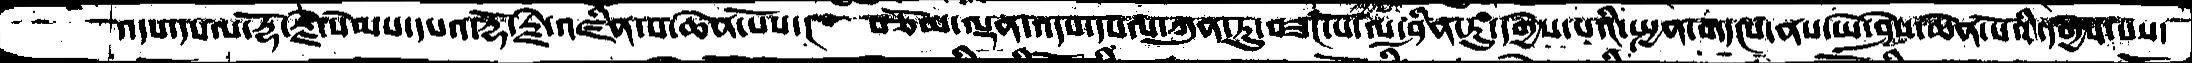འདས་དཔལ་རྡོ་རྗེ་སེམས་དཔའ་རྡོ་རྗེ་འཛིན་པ་ཆེན་པོས་།  བཅོམ་ལྡན་འདས་དཔལ་ཀུན་ཏུ་བཟང་པོ་ལ་ཤིན་ཏུ་དགྱེས་པའི་སྤྱན་གདངས་ནས་ཡེ་ཤེས་ཆེན་པོའི་དགྱེས་པས་
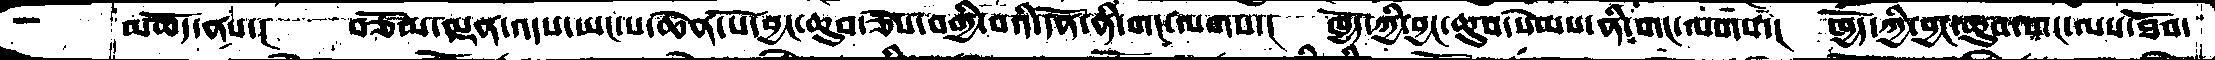མཆོད་ནས་།   བཅོམ་ལྡན་འདས་ཡང་པ་ཆེན་པོ་བྱང་ཆུབ་ཅེས་བགྱི་བའི་དོན་ནི་གང་ལགས་།  ཁྱོད་ཀྱི་བྱང་ཆུབ་སེམས་ནི་གང་ལགས་།  ཁྱོད་ཀྱི་བྱང་ཆུབ་གང་ལས་ཐོབ་
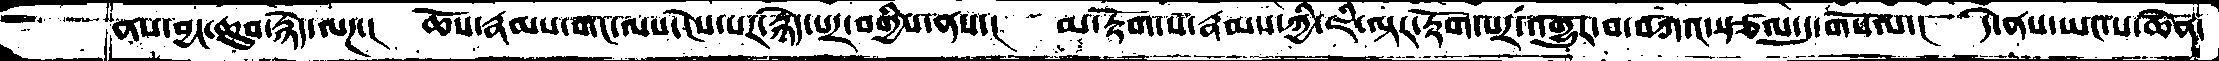ནས་བྱང་ཆུབ་རྙེད་ལཌ་།  ཆོས་རྣམས་གང་ལས་ངེས་པར་རྙེད་པར་བགྱིས་ནས་།  མ་རྟོག་པ་རྣམས་ཀྱི་ཇི་ལྟར་རྟོག་པར་འགྱུར་བ་བཀའ་སྩལ་དུ་གསོལ་།  དེ་ནས་ཡང་པ་ཆེན་
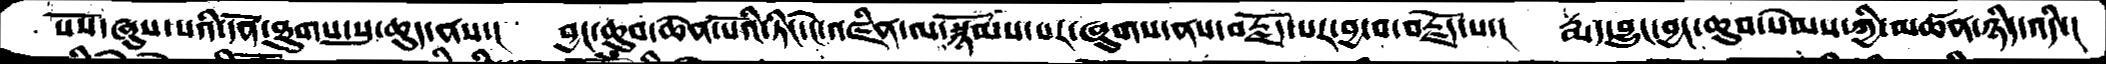པོས་ཞུས་པའི་དོན་ཐུགས་སུ་ཆུད་ནས་།  བྱང་ཆུབ་ཆེན་པོའི་ཏིང་ངེ་འཛིན་ལ་སྙོམས་པར་ཞུགས་ནས་བརྗོད་པར་བྱ་བ་བརྗོད་པ་།  རྨད་བྱུང་བྱང་ཆུབ་སེམས་ཀྱི་མཚན་ཉིད་འདི་།
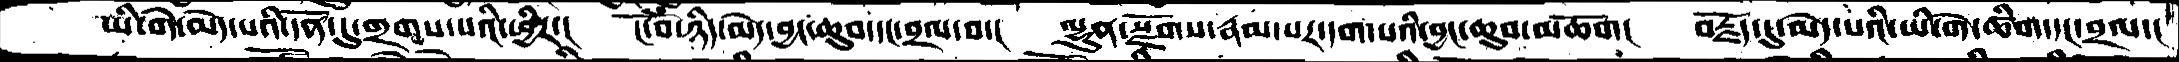ཡི་གེ་མེད་པའི་དོན་དུ་གྲགས་པའི་ཕྱིར་།  ངོ་བོ་ཉིད་མེད་བྱང་ཆུབ་དང་བྲལ་བ་།  ལྷུན་སྫོགས་རྣམ་པར་དག་པའི་བྱང་ཆུབ་མཆོག།  བརྗོད་དུ་མེད་པའི་ཡི་གེ་ཚིག་དང་བྲལ་།
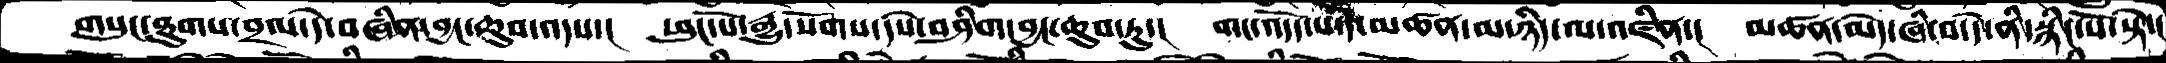གསུང་ཐུགས་བྲལ་དེ་བཞིན་བྱང་ཆུབ་འདས་།  ཕུང་པོ་རྒྱུ་སོགས་དཔེ་བཤིག་བྱང་ཆུབ་ཏུ་།  གང་འོདད་པའི་མཚན་མ་ཉིད་ལ་འཛིན་།  མཚན་མེད་ཞི་བ་དེ་ནི་སྙིང་པོ་སྟེ་།
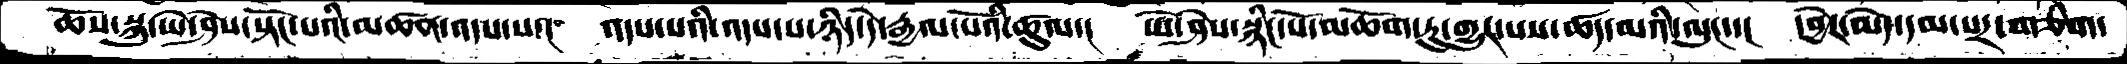ཆོས་སྐུ་ཡེ་ཤེས་སྟོང་པའི་མཚན་འདས་པ་།  འདས་པའི་འདས་པ་ཉིད་དེ་རྒྱལ་པོའི་ཚུལ་།  ཡེ་ཤེས་སྙིང་པོ་མཆོག་ཏུ་གྱུར་པས་ཚད་མའི་ལུང་་།  དབྱེར་མེད་དམ་པར་གཅིག་
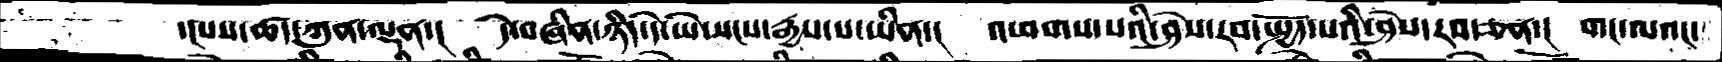་།པས་ཚད་ཀུན་ལྡན་།  དེ་བཞིན་ཉིད་དེ་ཡེ་སངས་རྒྱས་པ་ཡིན་།  འཕགས་པའི་ཤེས་རབ་སྤྱོད་པའི་ཤེས་རབ་ཅན་།  གང་ལའང་
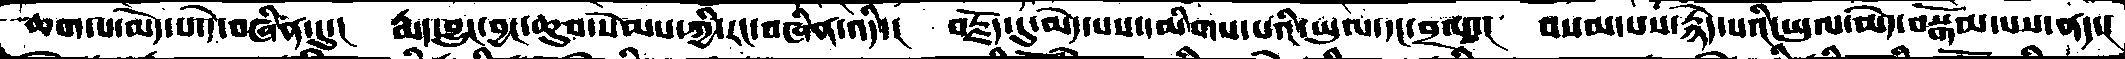ཆག་པ་མེད་པ་དེ་བཞིན་དུ་།  རྨད་བྱུང་བྱང་ཆུབ་སེམས་ཀྱི་རང་བཞིན་འདི་།  བརྗོད་དུ་མེད་པས་དམིགས་པའི་ཡུལ་དང་བྲལ་།  བསམ་པས་རྙེད་པའི་ཡུལ་མེད་བསྒོམ་པས་ནད་།
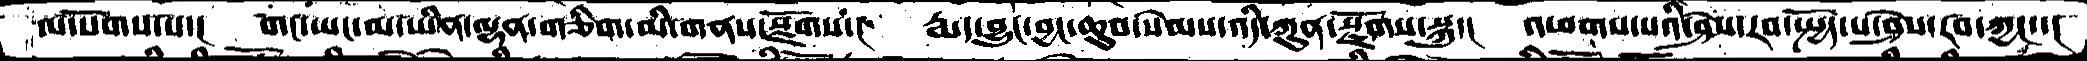ལ་སོགས་པ་།  གང་ཡང་མ་ཡིན་ལྷན་གཅིག་མི་གནས་སྫོགས་།  རྨད་བྱུང་བྱང་ཆུབ་སེམས་འདི་ཀུན་སྫོགས་སྐུ་།  འཕགས་པའི་ཤེས་རབ་སྤྱོད་པ་ཤེས་རབ་ཀྱང་་།
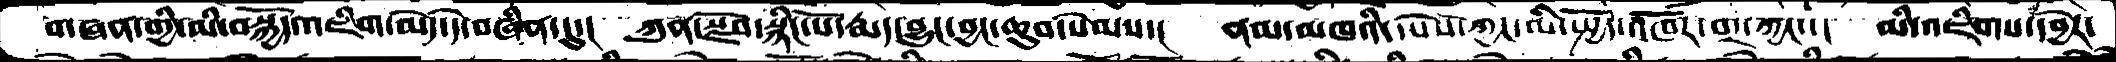གཞན་གྱི་མི་བསྐྱོད་འཇིག་མེད་དེ་བཞིན་དུ་།  ཀུན་སྫོབ་སྙིང་པོ་རྨད་བྱུང་བྱང་ཆུབ་སེམས་།  ནམ་མཁའི་དཔེས་ཀྱང་མི་སྤྱོད་འཁོར་བར་ཀྱང་་།  མི་འཇིགས་དབྱེར་
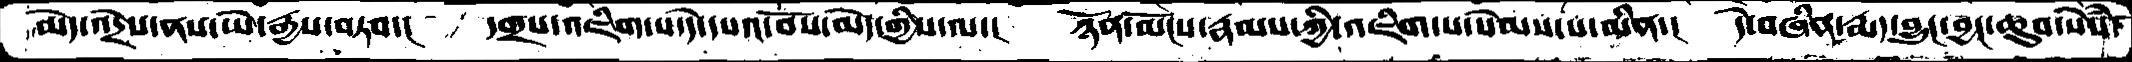མེད་འདྲེས་ནས་ཡེ་རྒྱས་བཏབ་།  དགྲས་འཇིག་པ་དེ་དཔའ་བོས་མེད་གྱིས་ལ་།  ཉོན་མོངས་རྣམས་ཀྱི་འཇིག་པ་སེམས་པ་མིན་།  དེ་བཞིན་རྨད་བྱུང་བྱང་ཆུབ་སེཾས་
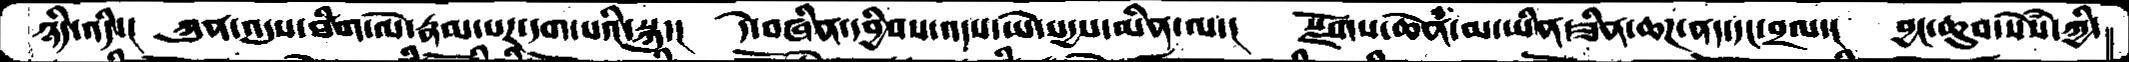ཉིད་འདི་།   ཀུན་འདུས་ཐིག་ལེ་རྣམ་པར་དག་པའི་སྐུ་།  དེ་བཞིན་དབྱིབས་འདས་ཡེ་སདྱས་མིན་ལ་།  སྫོགས་ཆེན་མ་ཡིན་ཟིན་ཆཌ་ནད་དང་བྲལ་།  བྱང་ཆུབ་སེཾས་ཀྱི་
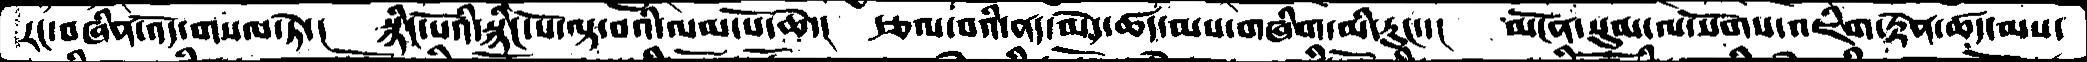རང་བཞིན་འོད་གསལ་ཏེ་།  སྙིང་པོའི་སྙིང་པོ་ལྟ་བའི་ལམ་པོ་ཆེ་། རྩལ་བའི་ནད་མེད་ཚད་མས་གཞིག་མི་རུང་་།  མངོན་སུམ་ལ་སོགས་འཇིག་རྟེན་ཚད་མས་
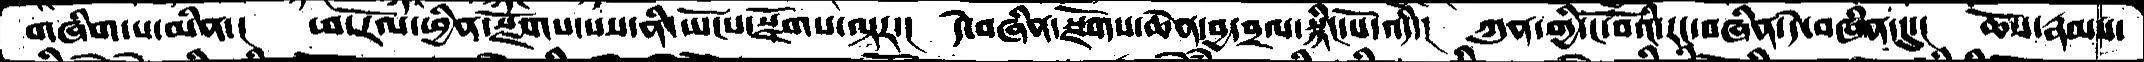གཞིག་པ་མིན་།  ཕ་རོལ་ཕྱིན་སྫོགས་པས་ནི་ཡོངས་སྫོགས་ལྟར་།  དེ་བཞིན་སྫོགས་ཆེན་བྱ་བྲལ་སྙིང་པོ་འདི་།  ཀུན་གྱི་ངོ་བོའི་རང་བཞིན་དེ་བཞིན་དུ་།  ཆོས་རྣམས་
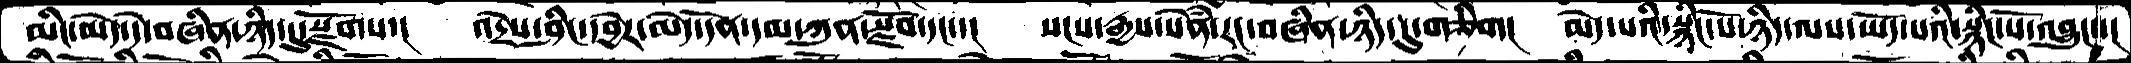མིང་མེད་དེ་བཞིན་ཉིད་དུ་སྫོགས་།  འདྲེས་ཤིང་དབྱེར་མེད་དོན་དམ་ཀུན་སྫོབ་དང་་།   སངས་རྒྱས་སེཾན་རང་བཞིན་ཉིད་དུ་གཅིག།  མེད་པའི་སྙིང་པོ་ཉིད་ལས་ཡོད་པའི་སྙིང་པོ་འབྱུང་་།
